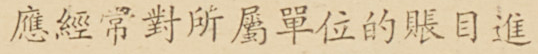應經常對所屬單位的賬目進
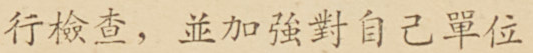行檢查，並加強對自己單位
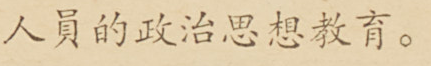人員的政治思想教育。
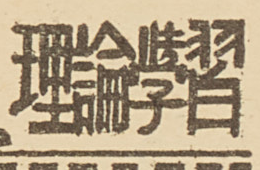理論學習
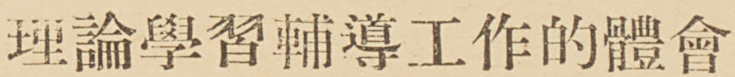理論學習輔導工作的體會
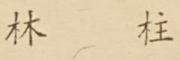林 柱
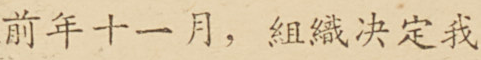前年十一月，組織決定我
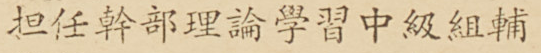担任幹部理論學習中級組輔
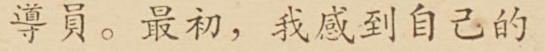導員。最初，我感到自己的
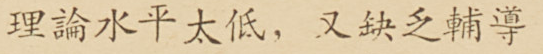理論水平太低，又缺乏輔導
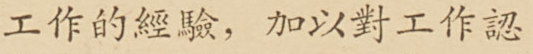工作的經驗，加以對工作認
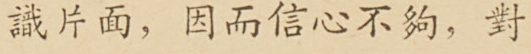識片面，因而信心不夠，對
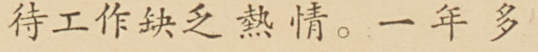待工作缺乏熱情。一年多
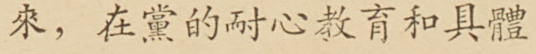來，在黨的耐心教育和具體
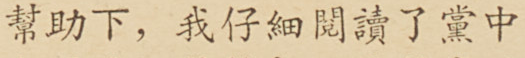幫助下，我自信閱讀了黨中
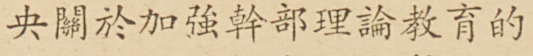央關於加強幹部理論教育的
